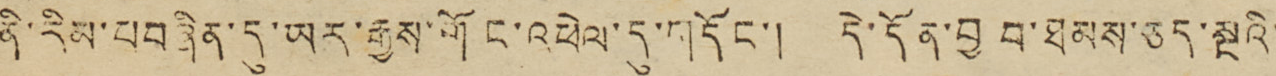ནི་རིམ་པབཞིན་དུ་ཡར་རྒྱས་གོང་འཕེལ་དུ་གདོང་། དེ་དོན་བྱ བ་ཐམས་ཅད་སྔའི་
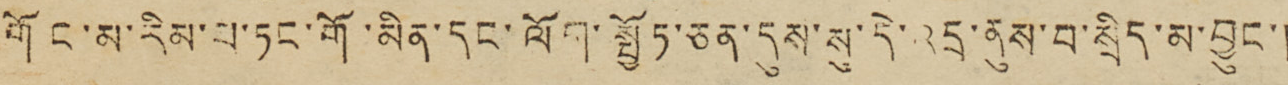གོང་མ་རིམ་པ་ཏང་གོ་མིན་དང་ལོག་སྤྱོཏ་ཅན་དུས་སུ་དེ་འདྲ་ནུས་བ་སྲིད་མ་བྱུང་།
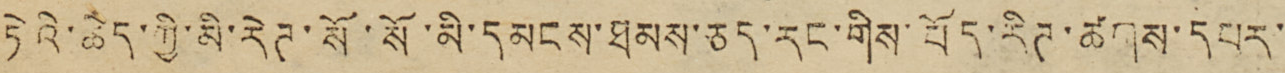དེའི་ཆེད་ཀྱི་མི་རེཊ་སོ་སོ་མི་དམངས་ཐམས་ཅད་རང་གིས་བོད་རིཊ་ཚགས་དཔར་
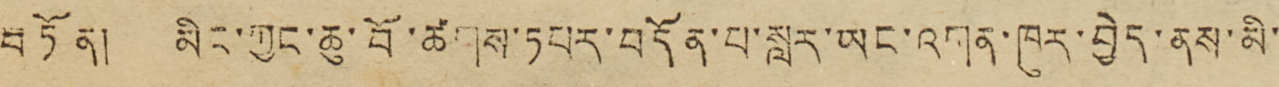བཏོན། མིང་ཀྱང་ཆུ་བོ་ཚགས་ཏཔར་བདོན་པ་སླར་ཡང་འགན་ཁུར་བྱེད་ནས་མི་
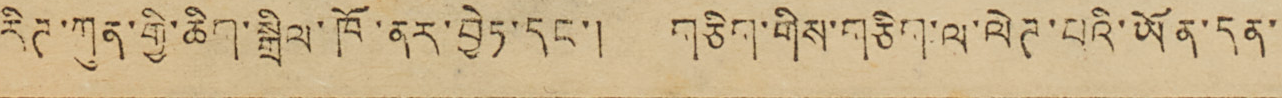རིཊ་ཀུན་གྱི་ཆིག་སྒྲིལ་ཁོ་ནར་བྱེཏ་དང་། གཅིག་གིས་གཅིག་ལ་ལེཊ་པའི་ཡོན་དན་
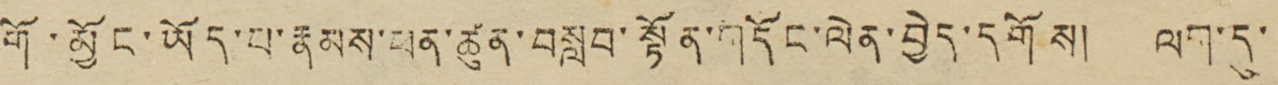གོ་མྱོང་ཡོད་པ་རྣམས་ཕན་ཚུན་བསླབ་སྟོན་གདོང་ལེན་བྱེད་དགོས། ལག་དུ་
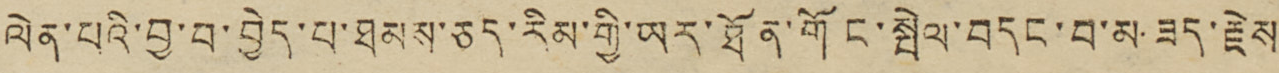ལེན་པའི་བྱ་བ་བྱེད་པ་ཐམས་ཅད་རིམ་གྱི་ཡར་ཐོན་གོང་སྤེལ་བདང་བ་མ ཟད་རྗེས
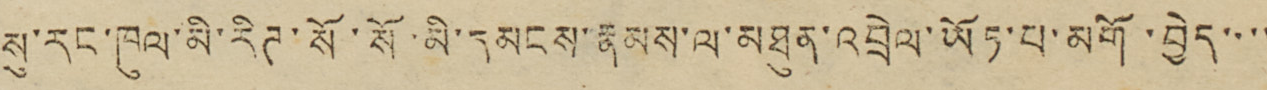སུ་རང་ཁུལ་མི་རིཊ་སོ་སོ་མི་དམངས་རྣམས་ལ་མཐུན་འབྲེལ་ཡོཏ་པ་མགོ་བྱེད་་་་
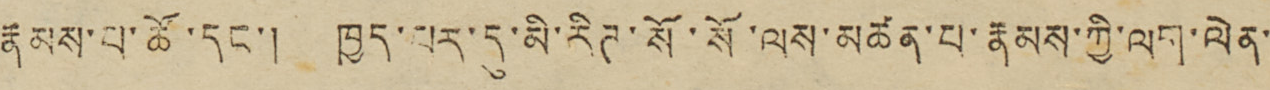རྣམས་པ་ཚོ་དང་། ཁྱད་པར་དུ་མི་རིཊ་སོ་སོ་ལས་མཚན་པ་རྣམས་ཀྱི་ལག་ལེན་
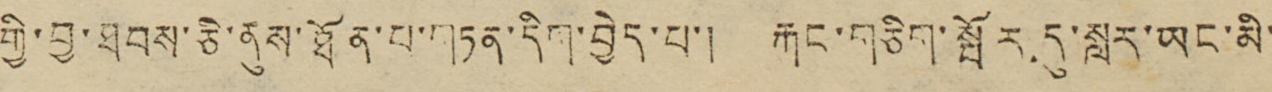གྱི་བྱ་ཐབས་ཅི་ནུས་ཐོན་པ་གཏན་དིག་བྱེད་པ་། རྐང་གཅིག་སྤོར དུ་སླར་ཡང་མི་
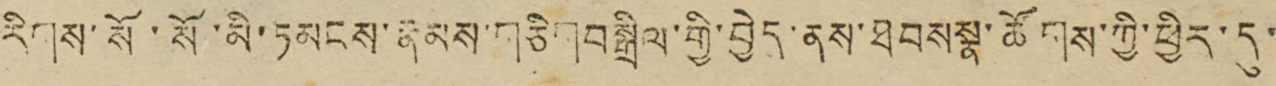རིགས་སོ་སོ་མི་ཏམངས་རྣམས་གཅིག བསྒྲིལ་གྱི་བྱེད་ནས་ཐབས སྣ་ཚོགས་ཀྱི་ཕྱིར་དུ་
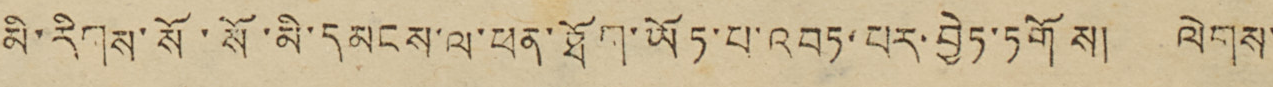མི་རིགས་སོ་སོ་མི་དམངས་ལ་ཕན་ཐོག་ཡོཏ་པ་འབཏ་པར་བྱེཏ་ཏགོས། ལེགས་
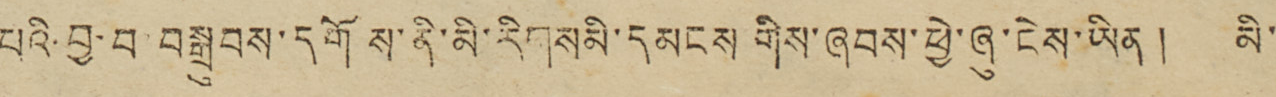པའི་བྱ་བ བསྒྲུབས་དགོས་མི་མི་རིགས མི་དམངས གིས་ཞབས་ཕྱེ་ཞུ་ངེས་ཡིན། མི་
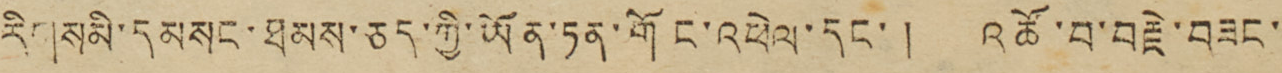རིགསམི་དམསང་ཐམས་ཅད་ཀྱི་ཡོན་ཏན་གོང་འཕེལ་དང་། འཚོ་བ་བརྗེ་བཟང་
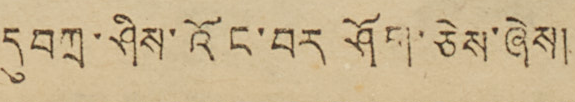དུ བཀྲ་ཤིས་འོང་བར ཤོག་ཅེས་ཞེས།
